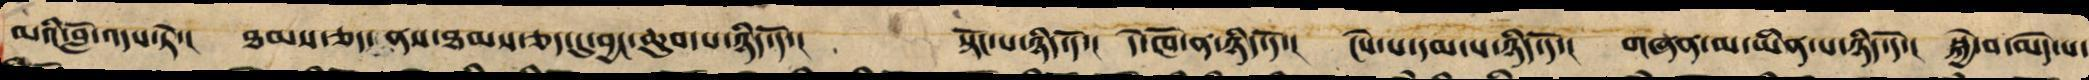མའི་བློ་འདས་ཏེ་། ཐམས་ཅད་ནས་ཐམས་ཅད་དུ་བྱང་ཆུབ་པ་ཉིད་དོ་། སྟོང་པ་ཉིད་དོ་། དེ་ཁོ་ན་ཉིད་དོ་། ངེས་པ་དམ་པ་ཉིད་དོ་། གཞན་མ་ཡིན་པ་ཉིད་དོ་། སྐྱེ་བ་མེད་པ་
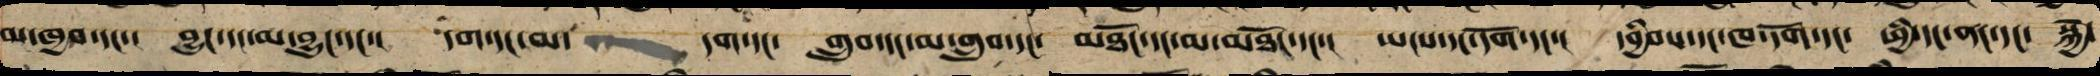མ་ཁྱབ་དང་། བྱུང་དང་མ་བྱུང་དང་། དག་དང་མ་ དག་དང་ གྲུབ་དང་མ་གྲུབ་དང་ མཐོང་དང་མ་མཐོང་དང་། ཡངས་དང་དོག་དང་། དབྱིབས་དང་ཁ་དོག་དང་ ཕྱི་དང་ནང་དང་ སྐྱེ་
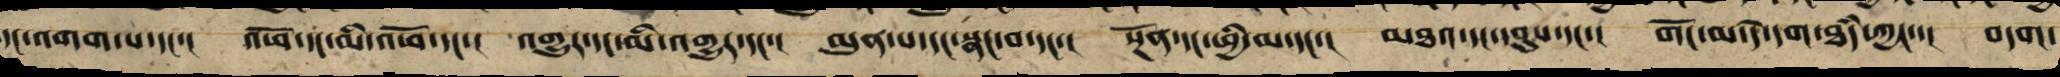དང་འགགས་པ་དང་། འཕོ་དང་མི་འཕོ་དང་། འགྱུར་དང་མི་འགྱུར་དང་། མུན་པ་དང་སྣང་བ་དང་། སྔོན་དང་ཕྱི་མ་དང་། མཐའ་དང་དབུས་དང་། གོང་མ་དེ་དག་ཐཾད་ཀྱང་་། བདག་
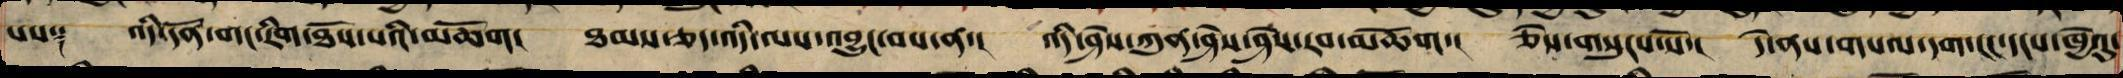པས༑ འདི་དོན་གང་རིག་ཐོས་པའི་མཆོག། ཐམས་ཅད་འདི་ལས་འབྱུང་བས་ན་། འདི་ཤེས་ཀུན་ཤེས་ཤེས་རབ་མཆོག། ཅེས་གསུངས་སོ་། དེ་ནས་གསལ་དག་ངང་དངས་ཁྱེའུ་
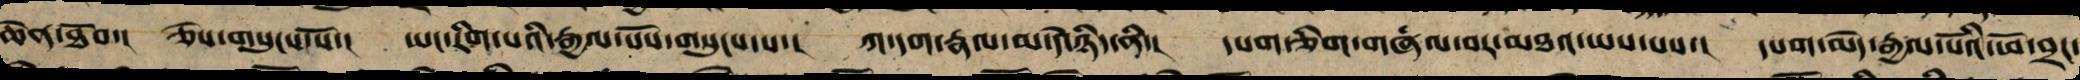ཆེན་ཐོབ་། ཅེས་གསུངས་སོ་། ཡང་རིག་པའི་རྒྱལ་པོས་གསུངས་པ་། ཀ་དག་རྣལ་མ་དེ་ཉིད་ནི་། དཔག་ཅིག་གཞལ་བར་མཐའ་ཡས་པས་། དཔག་མེད་རྒྱལ་པོའི་ཕོ་བྲང་
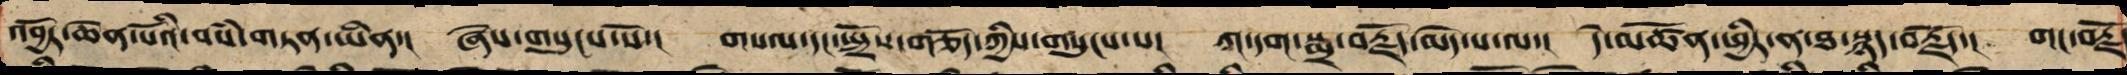འབྱོར་ཆེན་པོའི་བསཾ་གཏན་ཡིན་། ཞེས་གསུངས་སོ་། གསལ་དང་སྤྲོས་གཅོད་ཀྱིས་གསུངས་པ་། ཀ་དག་སྨྲ་བརྗོད་མེད་པ་ལས་། དེ་མཚོན་ཕྱིར་ན་ཐ་སྙད་བརྗོད་། གང་བརྗོད
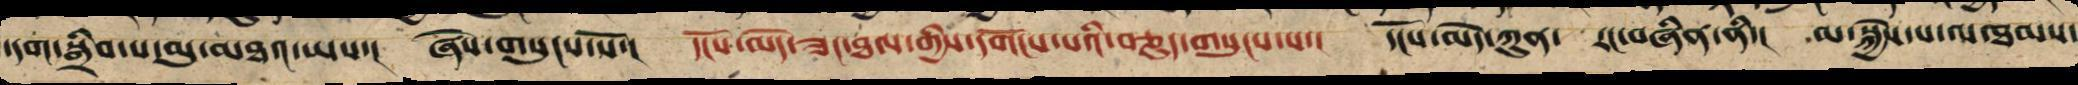་དག་སྒྲིབ་པ་མུ་མཐའ་ཡས་། ཞེས་གསུངས་སོ་། དངོས་མེད་ཟང་ཐལ་གྱིས་དགོངས་པའི་བཅུད་གསུངས་པ་། དངོས་མེད་ཀུན་ རང་བཞིན་ནི་། མ་སྐྱེས་པ་ལས་ཐམས་
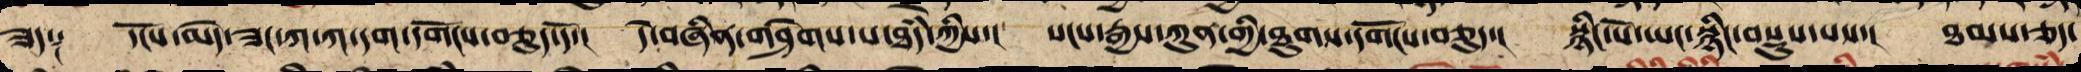ཟད།༑ དངོས་མེད་ཟང་ཀ་ཀ་དག་དགོངས་བཅུད་དོ་། དེ་བཞིན་གཤེགས་པ་ཐམས་ཅད་ཀྱིས་། སངས་རྒྱས་ཀུན་གྱི་ཐུགས་དགོངས་བཅུད་། སྙིང་པོ་ཡང་སྙིང་བསྡུས་པས་། ཐམས་ཅད་
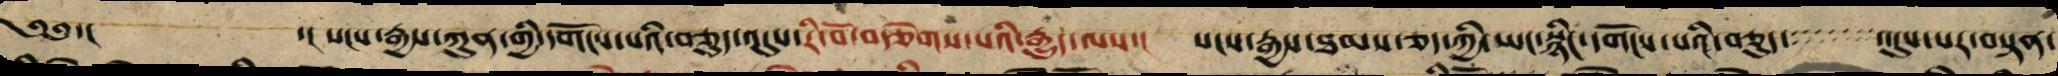༄༅་། སངས་རྒྱས་ཀུན་གྱི་དགོངས་པའི་བཅུད་འདུས་རི་བོ་བརྩེགས་པའི་རྒྱུད་ལས་། སངས་རྒྱས་ཐམས་ཅད་ཀྱི་ཐུགས་ཀྱི་ཡང་སྙིང་དགོངས་པའི་བཅུད་འདུས་པར་བསྟན་་
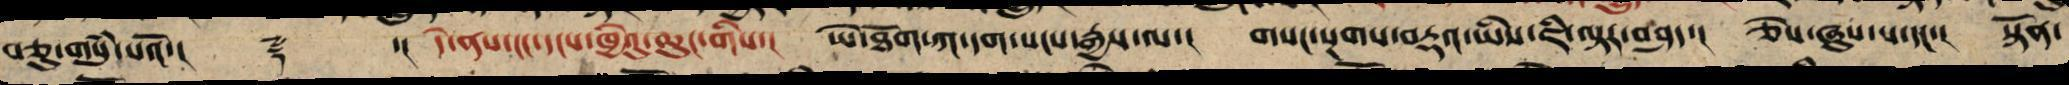བཅུ་གསུཾ་པའོ་།། ༈ ་།། དེ་ནས་ངང་དངས་ཁྱེའུ་ཆུང་གིས་། ཡེ་ཐོག་ཀ་དག་སངས་རྒྱས་ལ་། གསང་སྔགས་བརྡའ་ཡིས་ཇི་ལྟར་བཤད་། ཅེས་ཞུས་པ་དང་། སྟོན་
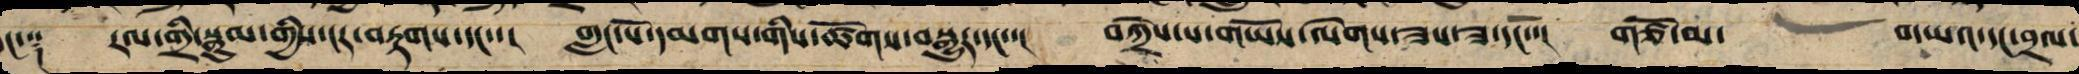དང་༑ རལ་གྲི་སྣུམ་གྱིས་ངར་བརྟགས་དང་་། གླང་པོས་དམགས་གིས་ཚོགས་བསྒྱུར་དང་་། བཀྲེས་པ་གཡོས་ལེགས་ཟས་ཟ་དང་་། གཙོ་མ་གཡའ་དང་བྲལ་
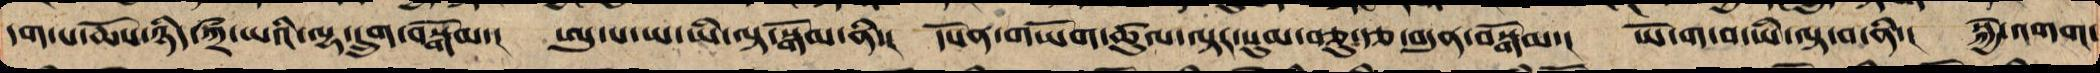དག་པ་ཆོས་ཉིད་ཀྲྀ་ཡའི་ལྷ་དྲུག་བསྒོམ་། ཨུ་པ་ཡ་ཡི་ལྟ་སྒོམ་ནི་། དཔོན་གཡོག་ཚུལ་ལྟར་སུམ་ཅུ་རྩ་བདུན་བསྒོམ་། ཡོ་ག་པ་ཡི་ལྟ་བ་ནི་། སྐྱེ་འགག་
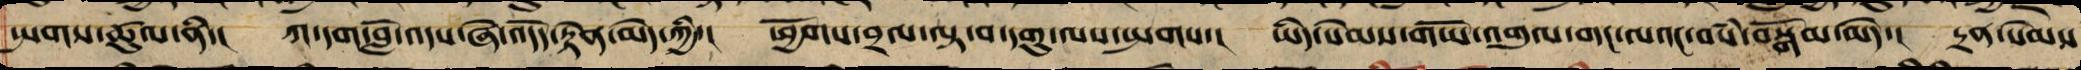སྤགས་ཚུལ་ནི་། ཀ་དག་བློ་འདས་ཞེ་འདོད་རྟེན་མེད་ཀྱི་། ཕྱོགས་བྲལ་ལྟ་བ་དགུ་ལས་སྤགས་། ཡིད་སེམས་གཡོ་འགུལ་གང་ལའང་བསཾ་བསྒོམ་མེད་། དྲན་སེམས
